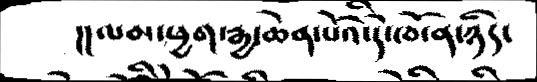།། ལམ་ཕྱག་རྒྱ་ཆེན་པོའི་དེ་ཁོ་ན་ཉིད་
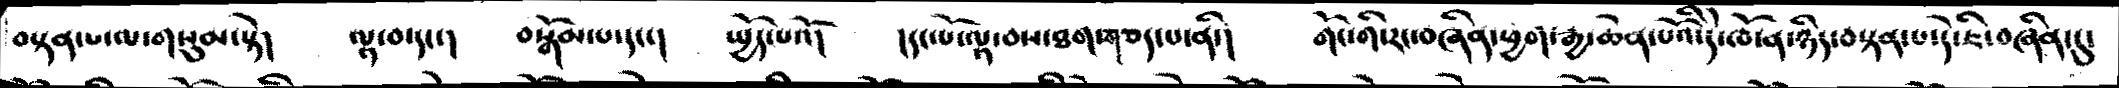བསྟན་པ་ལ་གསུམ་སྟེ།    ལྟ་བ་དང་།  བསྒོམ་པ་དང་།  སྤྱོད་པའོ།   །དང་པོ་ལྟ་བས་ཐག་བཅད་པ་ནི་།  གོང་གི་རང་བཞིན་ཕྱག་རྒྱ་ཆེན་པོའི་དེ་ཁོ་ན་ཉིད་བསྟན་པ་དེ་ཇི་བཞིན་དུ་
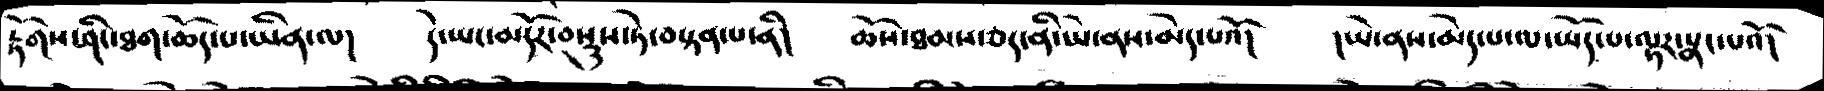རྟོགས་ཤིང་ཐག་ཆོད་པ་ཡིན་ལ།   དེ་ཡང་མདོར་བསྡུས་ཏེ་བསྟན་པ་ནི།  ཆོས་ཐམས་ཅད་ནི་ཡེ་ནས་མེད་པའོ།  །ཡེ་ནས་མེད་པ་ལ་ཡོད་པ་ལྟར་སྣང་པའོ།
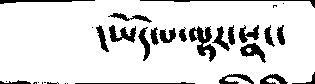།ཡོད་པ་ལྟར་སྣང་
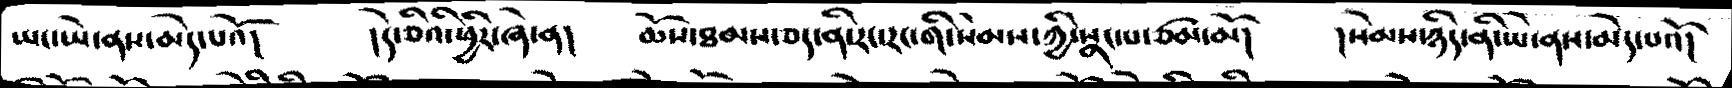ཡང་ཡེ་ནས་མེད་པའོ།  །དེ་ཅིའི་ཕྱིར་ཞེ་ན།   ཆོས་ཐམས་ཅད་ནི་རང་རང་གི་སེམས་ཀྱི་སྣང་པ་ཙམ་མོ།  །སེམས་ཉིད་ནི་ཡེ་ནས་མེད་པའོ།
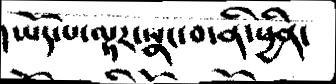།ཡོད་པ་ལྟར་སྣང་བ་ནི་ཕྱིན་
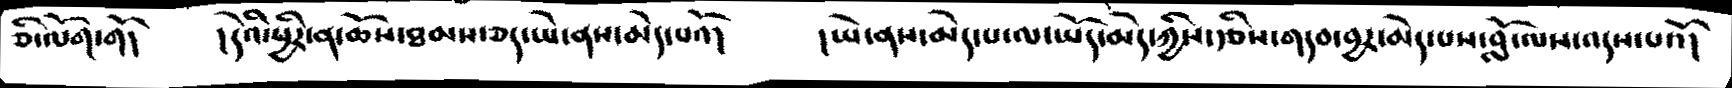ཅི་ལོག་གོ།    །དེའི་ཕྱིར་ན་ཆོས་ཐམས་ཅད་ཡེ་ནས་མེད་པའོ།   །ཡེ་ནས་མེད་པ་ལ་ཡོད་མེད་ཀྱིས་རྩིས་གདབ་བྱར་མེད་པས་བློ་ལས་འདས་པའོ།
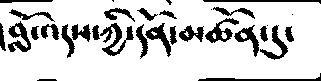།བློ་འདས་ཀྱི་དོན་མཚོན་དུ་
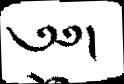༄༅།
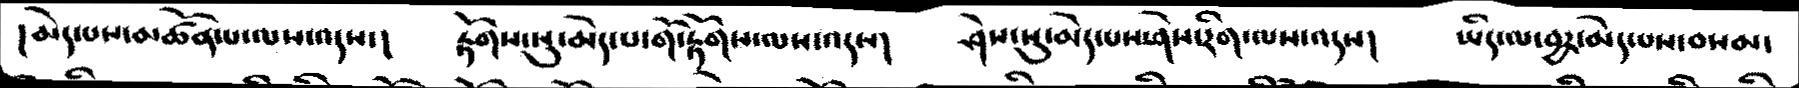།མེད་པས་མཚོན་པ་ལས་འདས་།  རྟོགས་སུ་མེད་པ་གོ་རྟོགས་ལས་འདས།  ཤེས་སུ་མེད་པས་ཤེས་རིག་ལས་འདས།  ཡིད་ལ་བྱར་མེད་པས་བསམ་
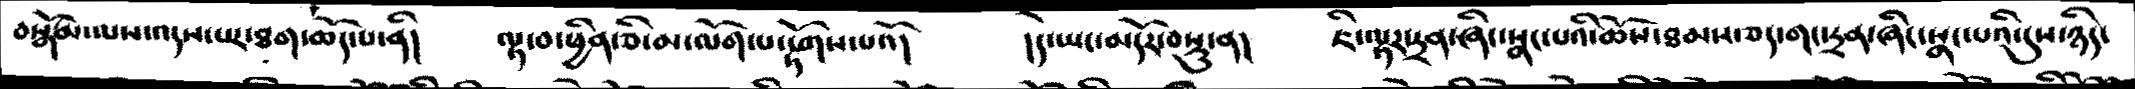བསྒོམ་ལས་འདས་པར་ཐག་ཆོད་པ་ནི།  ལྟ་བ་ཕྱིན་ཅི་མ་ལོག་པ་རྟོགས་པའོ།  །དེ་ཡང་མདོར་བསྡུ་ན།  ཇི་ལྟར་དྲན་ཞིང་སྣང་པའི་ཆོས་ཐམས་ཅད་གང་དྲན་ཞིང་སྣང་པའི་དུས་ཉིད་
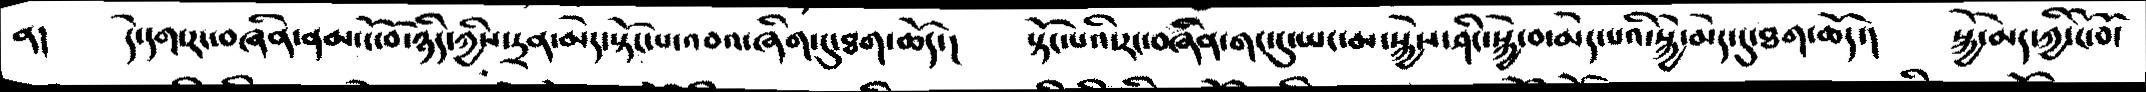ན།   དེ་དག་རང་བཞིན་ནམ་ངོ་བོ་ཉིད་ཀྱིས་དྲན་མེད་སྟོང་པ་འབའ་ཞིག་དུ་ཐག་ཆོད་།  སྟོང་པའི་རང་བཞིན་གང་དུ་ཡང་མ་སྐྱེས་ཤིང་སྐྱེ་བ་མེད་པའི་སྐྱེ་མེད་དུ་ཐག་ཆོད་།  སྐྱེ་མེད་ཀྱི་ངོ་བོ་
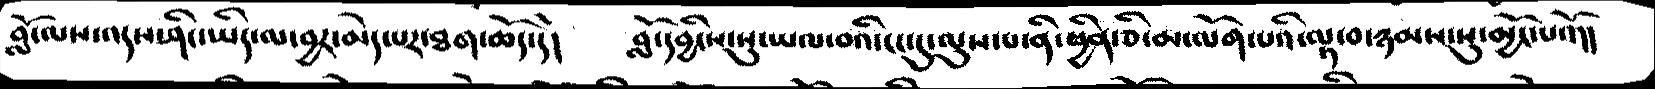བློ་ལས་འདས་ཤིང་ཡིད་ལ་བྱར་མེད་པར་ཐག་ཆོད་དེ།   བློ་དབྱིངས་སུ་ཡལ་བའི་ངང་དུ་ལུས་པ་ནི་ཕྱིན་ཅི་མ་ལོག་པའི་ལྟ་བ་ཉམས་སུ་མྱོང་པའོ།།
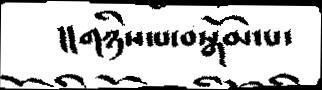།།གཉིས་པ་བསྒོམ་པ་
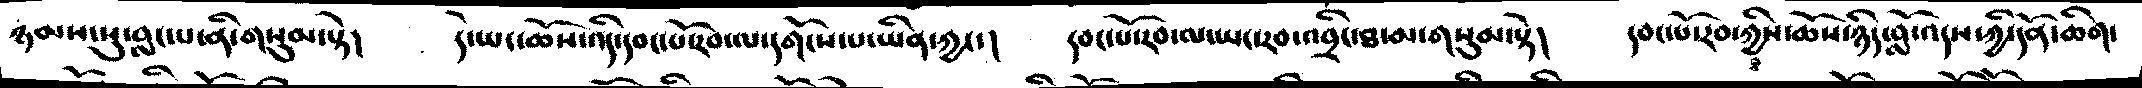ཉམས་སུ་བླང་པ་ནི་གསུམ་སྟེ།  དེ་ཡང་ཆོས་འདི་དབང་པོ་རབ་ལ་དགོངས་པ་ཡིན་ཀྱང་།  དབང་པོ་རབ་ལ་ཡང་རབ་འབྲིང་ཐ་མ་གསུམ་སྟེ།   དབང་པོ་རབ་ཀྱིས་ཆོས་ཉིད་བློ་འདས་ཀྱི་དོན་ཆིག་
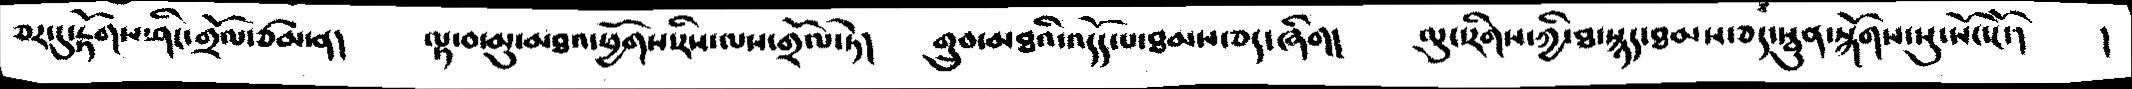ཅར་དུ་རྟོགས་ཤིང་གྲོལ་ཙམ་ན།  ལྟ་བ་མུ་མཐའ་ཕྱོགས་རིས་ལས་གྲོལ་ཏེ།   གྲུབ་མཐའི་འདོད་པ་ཐམས་ཅད་ཞིག།   ལུང་རིགས་ཀྱི་ཐ་སྙད་ཐམས་ཅད་སྦུན་སྐོགས་སུ་སོང་ངོ་།   །
